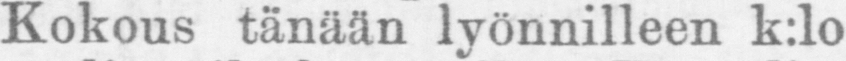Kokous tänään lyönnilleen k:lo
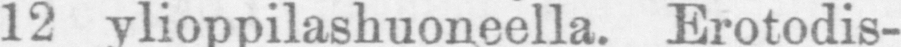12 ylioppilashuoneella. Erotodis-
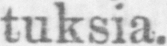tuksia.
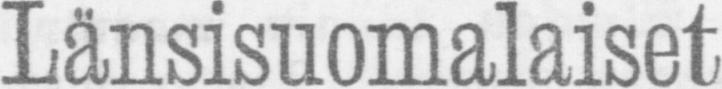Länsisuomalaiset
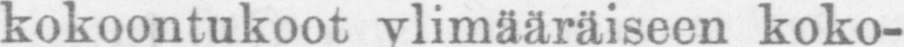kokoontukoot ylimääräiseen koko-
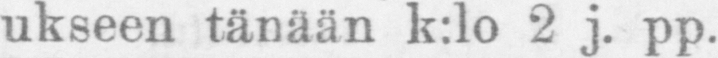ukseen tänään k:lo 2 j. pp.
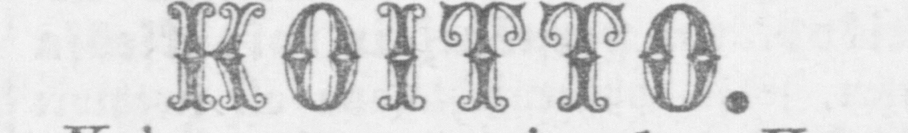KOITTO.
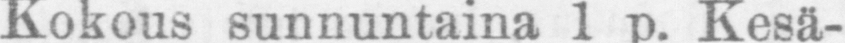Kokous sunnuntaina 1 p. Kesä-
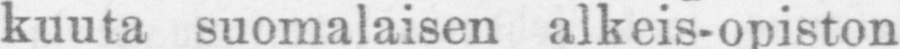kuuta suomalaisen alkeis-opiston
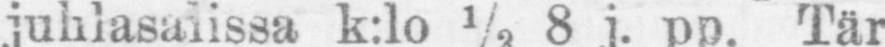juhlasalissa k:lo ½8 j. pp. Tär-
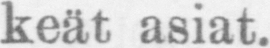keät asiat.
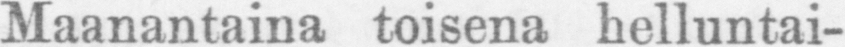Maanantaina toisena helluntai-
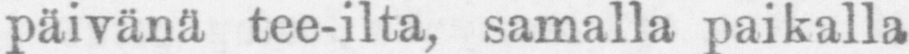päivänä tee-ilta, samalla paikalla
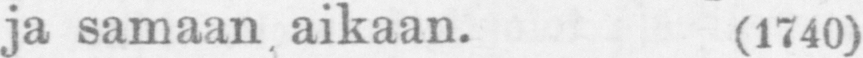ja samaan aikaan. (1740)
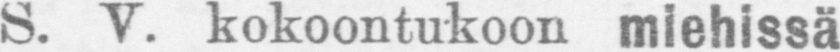S. V. kokoontukoon miehissä
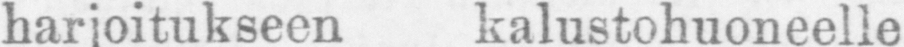harjoitukseen kalustohuoneelle
